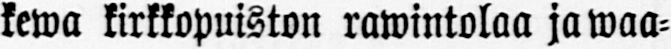kewa kirkkopuiston rawintolaa ja waa-
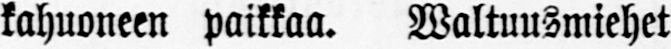kahuoneen paikkaa. Valtuusmiehet
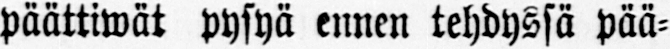päättiwät pysyä ennen tehdyssä pää-
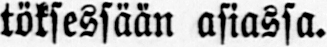töksessään asiassa.
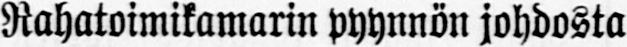Rahatoimikamarin pyynnön johdosta
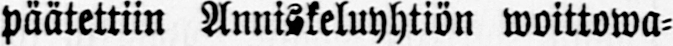päätettiin Anniskeluyhtiön woittowa-
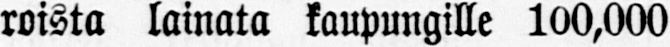roista lainata kaupungille 100,000
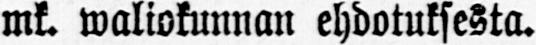mk. waliokunnan ehdotuksesta.
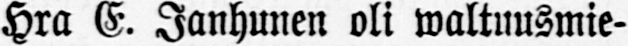Hra E. Janhunen oli waltuusmie-
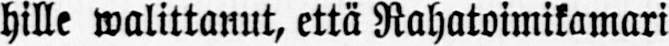hille walittanut, että Rahatoimikamari
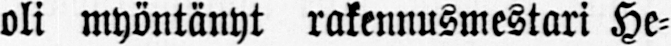oli myöntänyt rakennusmestari He-
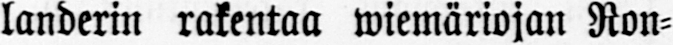landerin rakentaa wiemäriojan Ron-
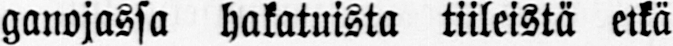ganojassa hakatuista tiileistä etkä
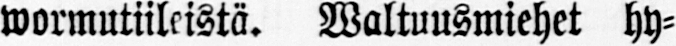wormutiileistä. Waltuusmiehet hy-
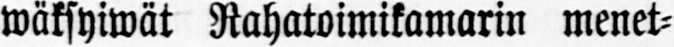wäksyiwät Rahatoimikamarin menet-
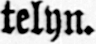telyn.
